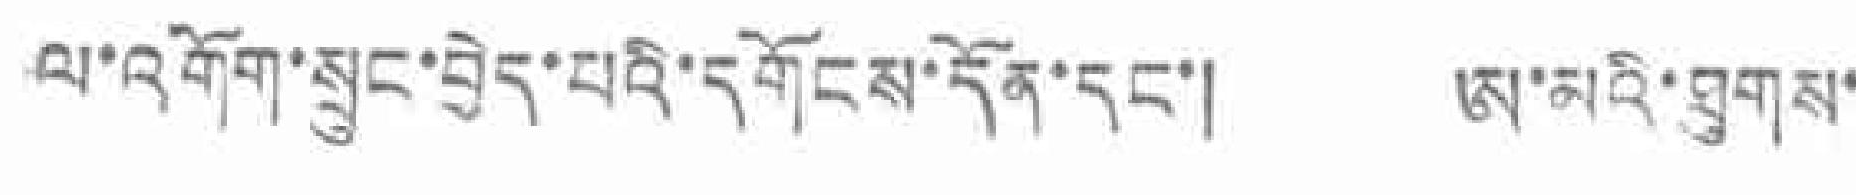ལ་འགོག་སྲུང་བྱེད་པའི་དགོངས་དོན་དང་། ཨ་མའི་ཐུགས་
